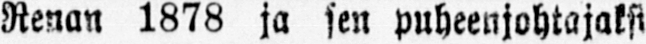Renan 1878 ja sen puheenjohtajaksi
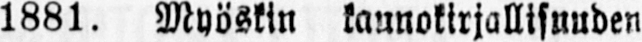1881. Myöskin kaunokirjallisuuden
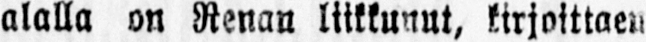alalla on Renan liikkunut, kirjoittaen,
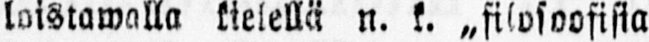loistawalla kielellä n. k. „filosoofisia
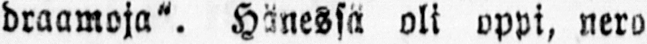draamoja". Hänessä oli oppi, nero
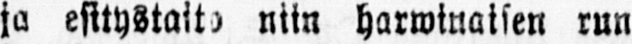ja esitystaito niin harwinaisen run
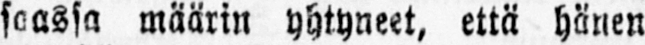saassa määrin yhtyneet, että hänen
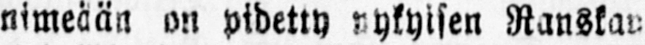nimeään on pidetty nykyisen Ranskan
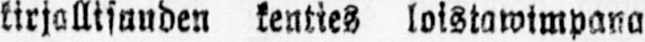kirjallisuuden kenties loistawimpana
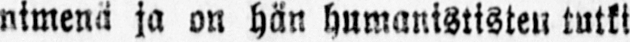nimenä ja on hän humanististen tutki-
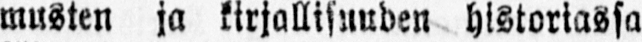musten ja kirjallisuuden historiassa
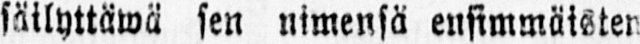säilyttäwä sen nimensä ensimmäisten
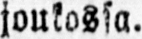joukossa.
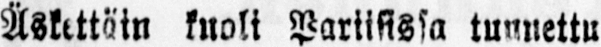Äskettäin kuoli Pariisissa tunnettu
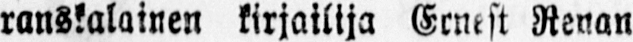ranskalainen kirjailija Ernest Renan
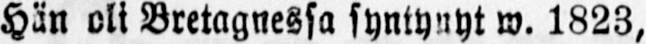Hän oli Bretagnessa syntynyt w. 1823,
